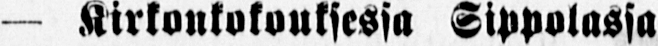— Kirkonkokouksessa Sippolassa
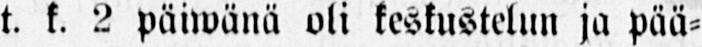t. k. 2 päiwänä oli keskustelun ja pää-
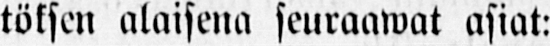töksen alaisena seuraawat asiat:
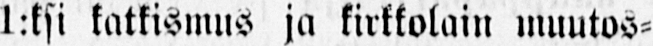1:ksi katkismus ja kirkkolain muutos-
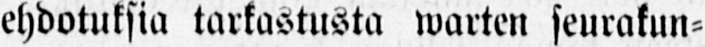ehdotuksia tarkastusta warten seurakun-
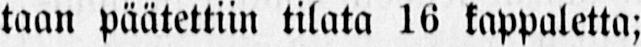taan päätettiin tilata 16 kappaletta;
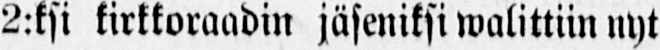2:ksi kirkkoraadin jäseniksi walittiin nyt
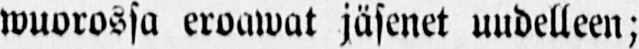wuorossa eroawat jäsenet uudelleen;
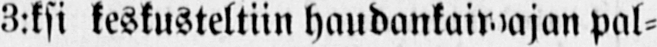3:ksi keskusteltiin haudankaiwajan pal-
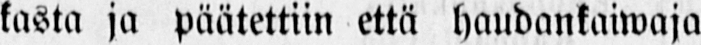kasta ja päätettiin että haudankaiwaja
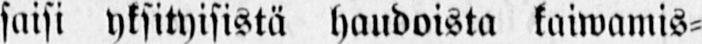saisi yksityisistä haudoista kaiwamis-
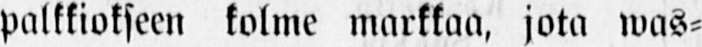palkkiokseen kolme markkaa, jota was-
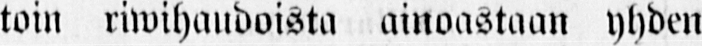toin riwihaudoista ainoastaan yhden
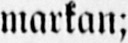markan;
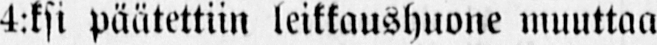4:ksi päätettiin leikkaushuone muuttaa
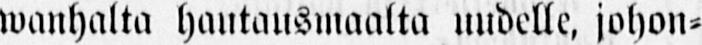wanhalta hautausmaalta uudelle, johon-
